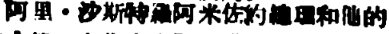阿里・沙斯特羅阿米佐約總理和他的
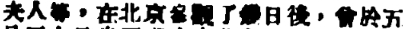夫人等，在北京參觀了幾日後，曾於五
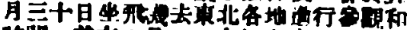月三十日坐飛機去東北各地進行參觀和
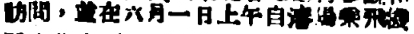訪問，並在六月一日上午自瀋陽乘飛機
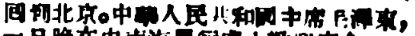囘到北京。中華人民共和國主席毛澤東，
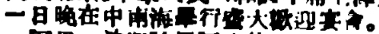一日晚在中南海舉行盛大歡迎宴會。
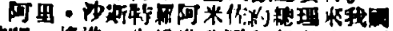阿里・沙斯特羅阿米佐約總理來我國
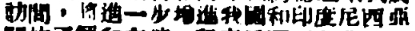訪問，將進一步增進我國和印度尼西亞
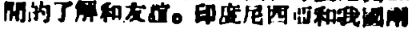間的了解和友誼。印度尼西亞和我國兩
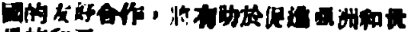國的友好合作，將有助於促進亞洲和世
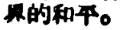界的和平。
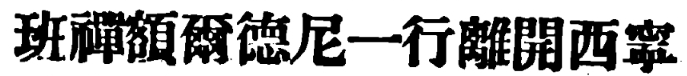班禪額爾德尼一行離開西寧
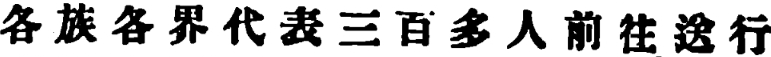各族各界代表三百多人前往送行
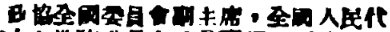政協全國委員會副主席，全國人民代
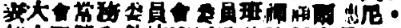表大會常務委員會位委員班禪額爾德尼・
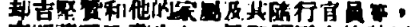却吉堅贊和他的家屬及其隨行官員等，
